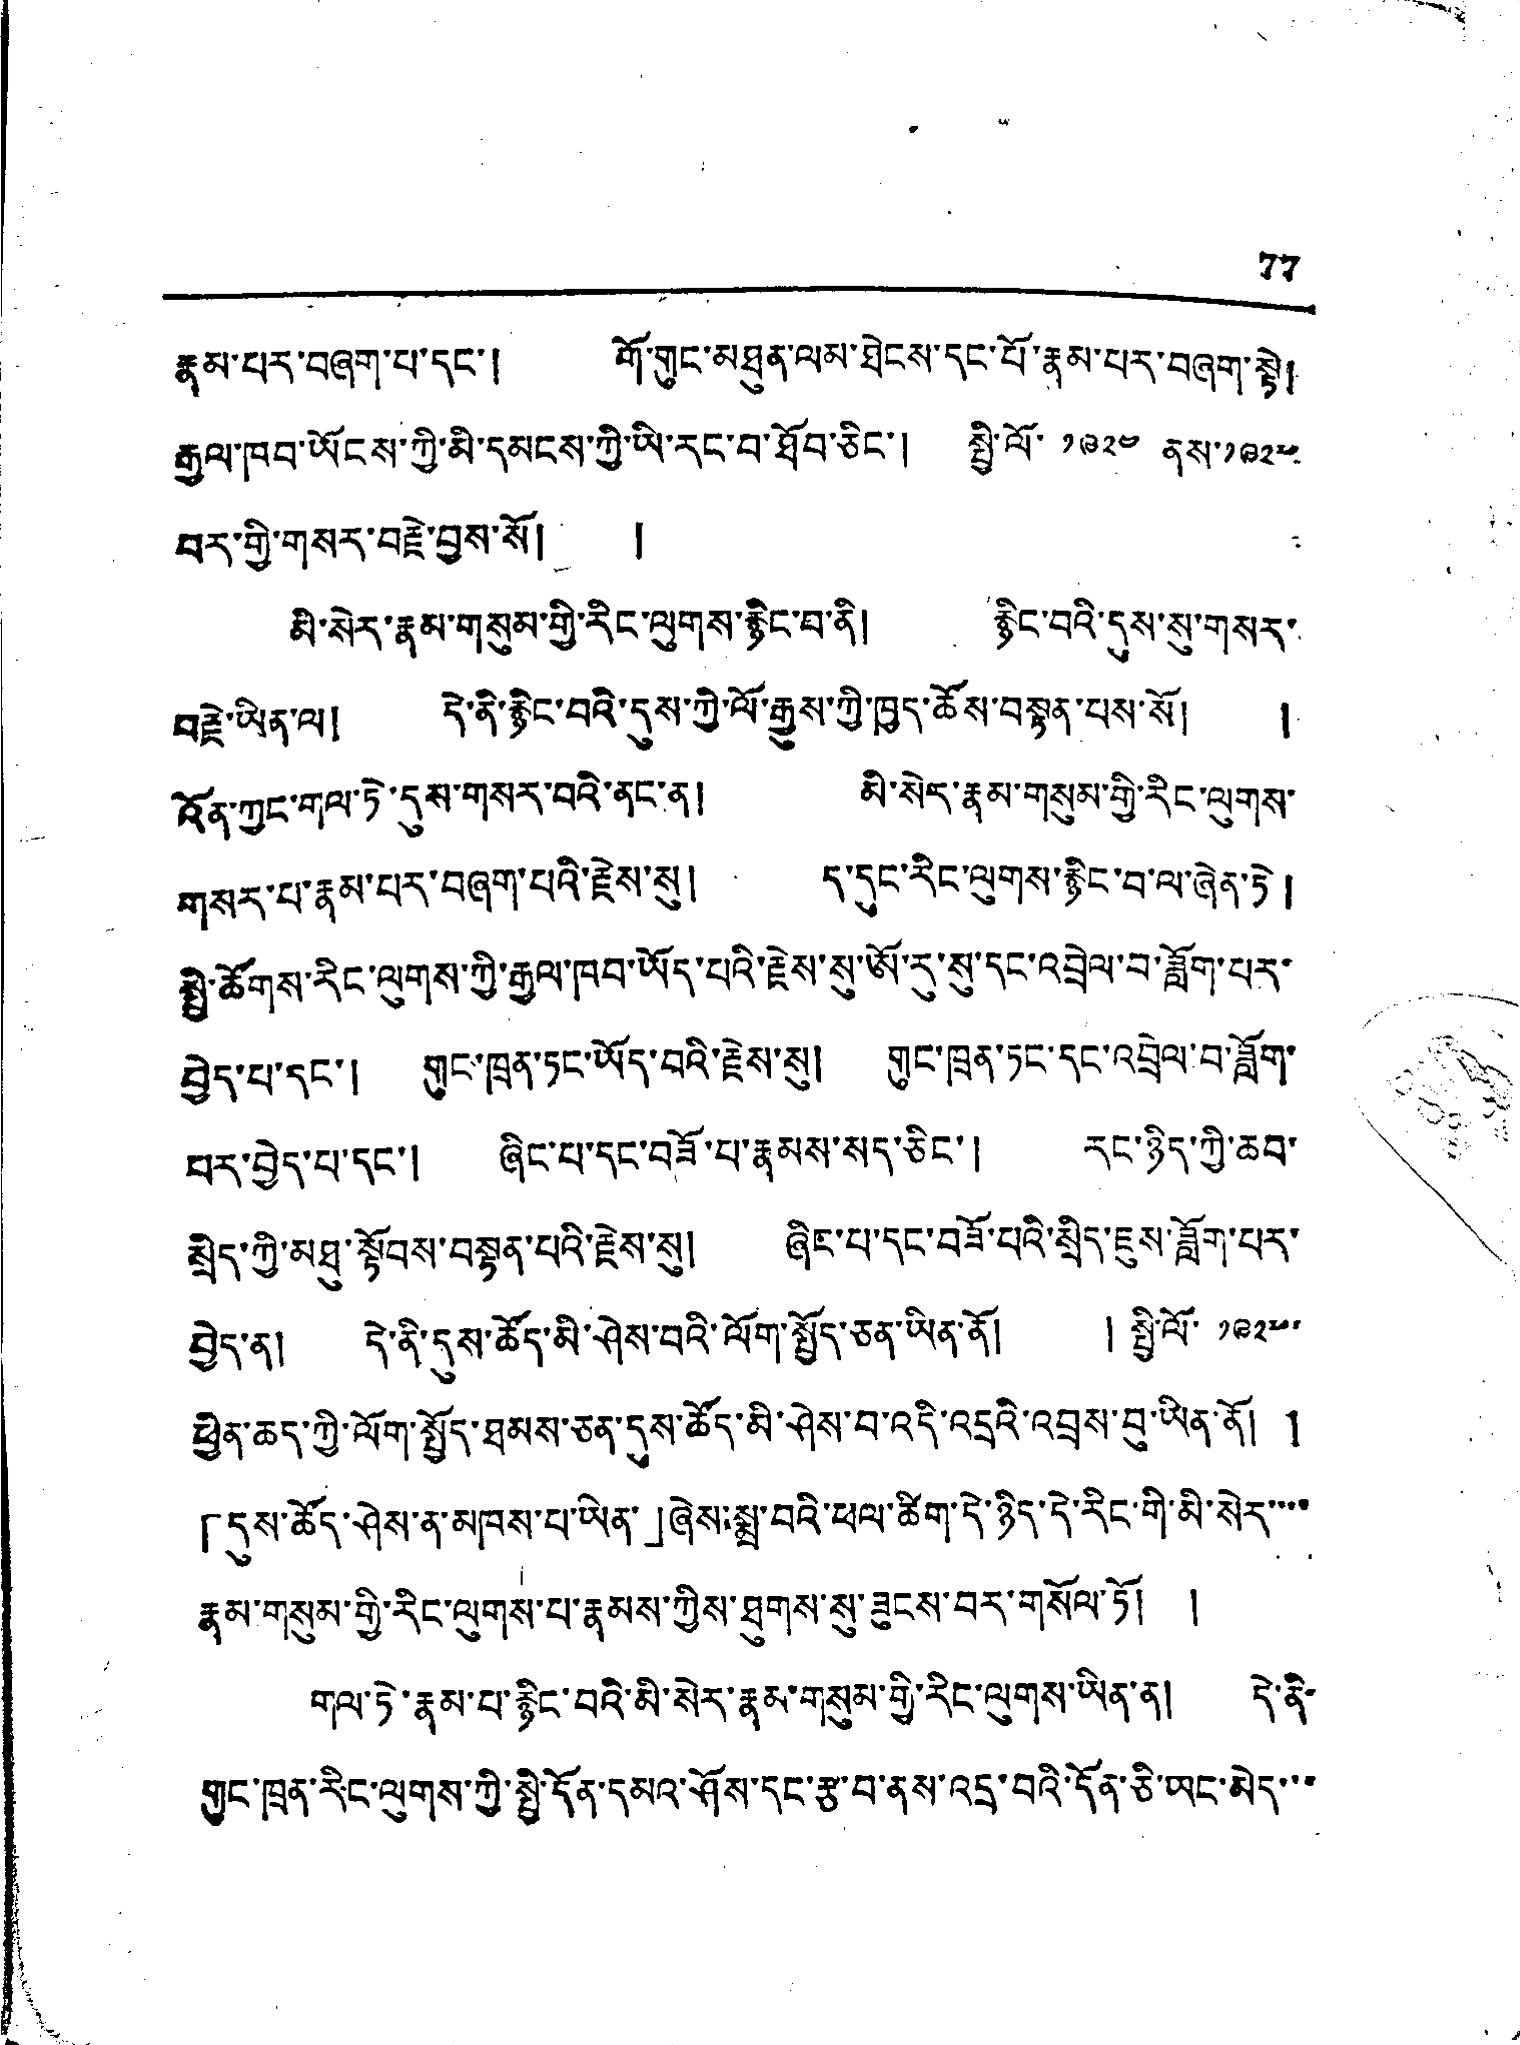77
རྣམ་པར་བཞག་པ་དང་། གོ་གུང་མཐུན་ལམ་ཐེངས་དང་པོ་རྣམ་པར་བཞག་སྟེ།
རྒྱལ་ཁབ་ཡོངས་ཀྱི་མི་དམངས་ཀྱི་ཡི་རང་བ་ཐོབ་ཅིང་། སྤྱི་ལོ་ ༡༩༢༤ ནས་༡༩༢༤
བར་གྱི་གསར་བརྗེ་བྱས་སོ། །
མི་སེར་རྣམ་གསུམ་གྱི་རིང་ལུགས་རྙིང་བ་ནི། རྙིང་བའི་དུས་སུ་གསར་
བརྗེ་ཡིན་ལ། དེ་ནི་རྙིང་བའི་དུས་ཀྱི་ལོ་རྒྱུས་ཀྱི་ཁྱད་ཚོས་བསྟན་པས་སོ། །
འོན་ཀྱང་གལ་ཏེ་དུས་གསར་བའི་ནང་ན། མི་སེར་རྣམ་གསུམ་གྱི་རིང་ལུགས་
གསར་པ་རྣམ་པར་བཞག་པའི་རྗེས་སུ། ད་དུང་རིང་ལུགས་རྙིང་བ་ལ་ཞིན་ཏེ།
སྤྱི་ཚོགས་རིང་ལུགས་ཀྱི་རྒྱལ་ཁབ་ཡོད་པའི་རྗེས་སུ་ཨོ་རུ་སུ་དང་འབྲེལ་བ་ཟློག་པར་
བྱེད་པ་དང་། གུང་ཁྲན་ཏང་ཡོད་བའི་རྗེས་སུ། གུང་ཁྲན་ཏང་དང་འབྲེལ་བ་ཟློག་
བར་བྱེད་པ་དང་། ཞིང་པ་དང་བཟོ་པ་རྣམས་སད་ཅིང་། རང་ཉིད་ཀྱི་ཆབ་
སྲིད་ཀྱི་མཐུ་སྟོབས་བསྟན་པའི་རྗེས་སུ། ཞིང་པ་དང་བཟོ་པའི་སྲིད་ཇུས་ཟློག་པར་
བྱེད་ན། དེ་ནི་དུས་ཚོད་མི་ཤེས་བའི་ལོག་སྤྱོད་ཅན་ཡིན་ནོ། །སྤྱི་ལོ་ ༡༩༢༧
ཕྱིན་ཆད་ཀྱི་ལོག་སྤྱོད་ཐམས་ཅན་དུས་ཚོད་མི་ཤེས་བ་འདི་འདྲའི་འབྲས་བུ་ཡིན་ནོ། །
「དུས་ཚོད་ཤེས་ན་མཁས་པ་ཡིན་」ཞེས་སྨྲ་བའི་ཕལ་ཚིག་དེ་ཉིད་དེ་རིང་གི་མི་སེར་་་་
རྣམ་གསུམ་གྱི་རིང་ལུགས་པ་རྣམས་ཀྱིས་ཐུགས་སུ་ཟུངས་བར་གསོལ་ཏོ། །
གལ་ཏེ་རྣམ་པ་རྙིང་བའི་མི་སེར་རྣམ་གསུམ་གྱི་རིང་ལུགས་ཡིན་ན། དེ་ནི་
གུང་ཁྲན་རིང་ལུསྒ་ཀྱི་སྤྱི་དོན་དམའ་ཤོས་དང་རྩ་བ་ནས་འདྲ་བའི་དོན་ཅི་ཡང་མེད་་་
